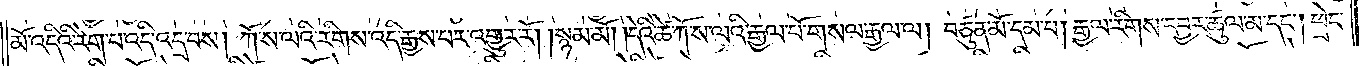མོ་འདིའི་རེག་པ་འདི་འདྲ་བས། ཀོ་ས་ལའི་རིགས་འདི་རྒྱས་པར་འགྱུར་རོ། །སྙམ་མོ། །དེའི་ཚེ་ཀོ་ས་ལའི་རྒྱལ་པོ་གསལ་རྒྱལ་ལ། བཙུན་མོ་དམ་པ། རྒྱལ་རིགས་དབྱར་ཚུལ་མ་དང༌། ཕྲེང་
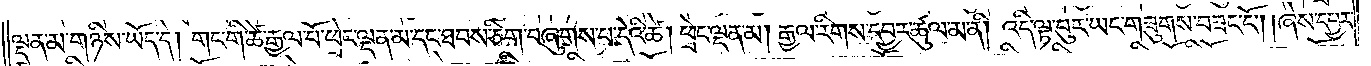ལྡན་མ་གཉིས་ཡོད་དེ། གང་གི་ཚེ་རྒྱལ་པོ་ཕྲེང་ལྡན་མ་དང་ཐབས་ཅིག་བཞུགས་པ་དེའི་ཚེ། ཕྲེང་ལྡན་མ། རྒྱལ་རིགས་དབྱར་ཚུལ་མ་ནི། འདི་ལྟ་བུར་ཡང་གཟུགས་བཟང་ངོ༌། །ཞེས་དབྱར་
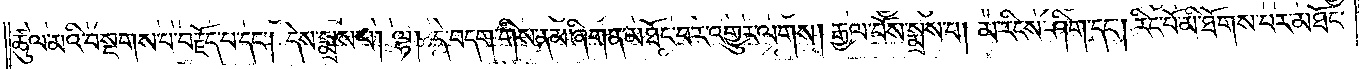ཚུལ་མའི་བསྔགས་པ་བརྗོད་པ་དང༌། དེས་སྨྲས་པ། ལྷ། དེ་བདག་གིས་ནམ་ཞིག་ན་མཐོང་བར་འགྱུར་ལགས། རྒྱལ་པོས་སྨྲས་པ། མ་རིངས་ཤིག་དང༌། རིང་པོ་མི་ཐོགས་པར་མཐོང་
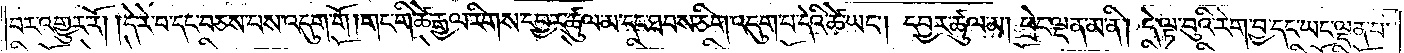བར་འགྱུར་རོ། །དེ་རེ་བ་དང་བཅས་པས་འདུག་གོ །གང་གི་ཚེ་རྒྱལ་རིགས་དབྱར་ཚུལ་མ་དང་ཐབས་ཅིག་འདུག་པ་དེའི་ཚེ་ཡང༌། དབྱར་ཚུལ་མ། ཕྲེང་ལྡན་མ་ནི། དེ་ལྟ་བུའི་རེག་བྱ་དང་ཡང་ལྡན་པ་
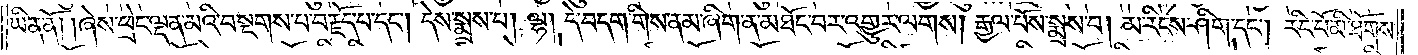ཡིན་ནོ། །ཞེས་ཕྲེང་ལྡན་མའི་བསྔགས་པ་བརྗོད་པ་དང༌། དེས་སྨྲས་པ། ལྷ། དེ་བདག་གིས་ནམ་ཞིག་ན་མཐོང་བར་འགྱུར་ལགས། རྒྱལ་པོས་སྨྲས་པ། མ་རིངས་ཤིག་དང༌། རིང་པོ་མི་ཐོགས་
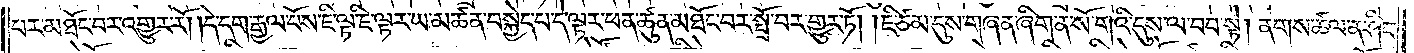པར་མཐོང་བར་འགྱུར་རོ། །དེ་དག་རྒྱལ་པོས་ཇི་ལྟ་ཇི་ལྟར་ཡ་མཚན་བསྐྱེད་པ་དེ་ལྟར་ཕན་ཚུན་མཐོང་བར་སྤྲོ་བར་གྱུར་ཏོ། །ཇི་ཙམ་དུས་གཞན་ཞིག་ན་སོ་གའི་དུས་ལ་བབ་སྟེ། ནགས་ཚལ་ན་ཤིང་
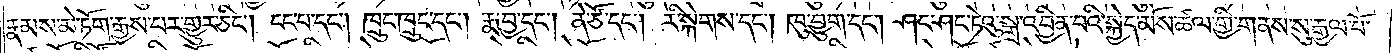རྣམས་མེ་ཏོག་རྒྱས་པར་གྱུར་ཅིང༌། ངང་པ་དང༌། ཁྲུང་ཁྲུང་དང༌། རྨ་བྱ་དང༌། ནེ་ཙོ་དང༌། རི་སྐེགས་དང༌། ཁུ་བྱུག་དང༌། ཤང་ཤང་ཏེའུ་སྒྲ་འབྱིན་པའི་སྐྱེད་མོས་ཚལ་གྱི་གནས་སུ་རྒྱལ་པོ་
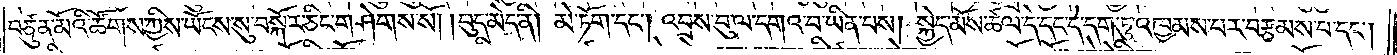བཙུན་མོའི་ཚོགས་ཀྱིས་ཡོངས་སུ་བསྐོར་ཅིང་གཤེགས་སོ། །བུད་མེད་ནི། མེ་ཏོག་དང༌། འབྲས་བུ་ལ་དགའ་བ་ཡིན་པས། སྐྱེད་མོས་ཚལ་དེ་དང་དེ་དག་ཏུ་འཁྱམས་པར་བརྩམས་པ་དང༌།
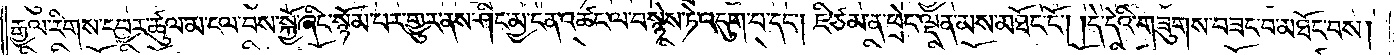རྒྱལ་རིགས་དབྱར་ཚུལ་མ་ངལ་བས་སྐྱོ་ཞིང་སྙོམ་པར་གྱུར་ནས་ཤིང་མྱ་ངན་འཚང་ལ་བསྙེས་ཏེ་འདུག་པ་དང༌། ཇི་ཙམ་ན་ཕྲེང་ལྡན་མས་མཐོང་ངོ༌། །དེ་དེའི་གཟུགས་བཟང་བ་མཐོང་བས།
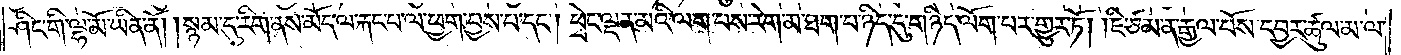ཤིང་གི་ལྷ་མོ་ཡིན་ནོ། །སྙམ་དུ་རིག་ནས་མོད་ལ་རྐང་པ་ལ་ཕྱག་བྱས་པ་དང༌། ཕྲེང་ལྡན་མའི་ལག་པས་རེག་མ་ཐག་པ་ཉིད་དུ་གཉིད་ལོག་པར་གྱུར་ཏོ། །ཇི་ཙམ་ན་རྒྱལ་པོས་དབྱར་ཚུལ་མ་ལ་
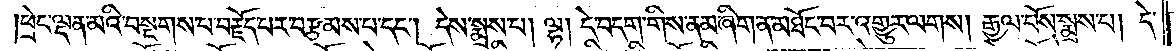ཕྲེང་ལྡན་མའི་བསྔགས་པ་བརྗོད་པར་བརྩམས་པ་དང༌། དེས་སྨྲས་པ། ལྷ། དེ་བདག་གིས་ནམ་ཞིག་ན་མཐོང་བར་འགྱུར་ལགས། རྒྱལ་པོས་སྨྲས་པ། དེ་
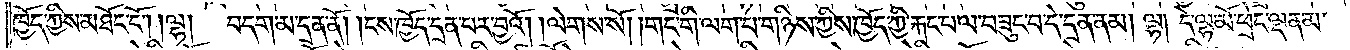ཁྱོད་ཀྱིས་མཐོང་ངོ༌། །ལྷ། བདག་མ་དྲན་ནོ། །ངས་ཁྱོད་དྲན་པར་བྱའོ། །ལེགས་སོ། །གང་གི་ལག་པ་གཉིས་ཀྱིས་ཁྱོད་ཀྱི་རྐང་པ་ལ་བཟུང་བ་དེ་དྲན་ནམ། ལྷ། དེ་ལྷ་མོ་ཕྲེང་ལྡན་མ་
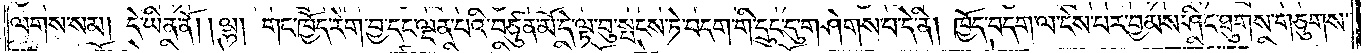ལགས་སམ། དེ་ཡིན་ནོ། །ལྷ། གང་ཁྱོད་རེག་བྱ་དང་ལྡན་པའི་བཙུན་མོ་དེ་ལྟ་བུ་སྤངས་ཏེ་བདག་གི་དྲུང་དུ་གཤེགས་པ་དེ་ནི། ཁྱོད་བདག་ལ་ངེས་པར་བྱམས་ཤིང་ཐུགས་གཅུགས་
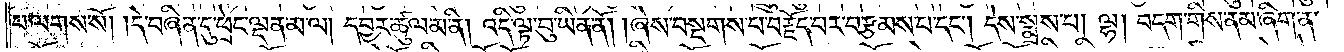པ་ལགས་སོ། །དེ་བཞིན་དུ་ཕྲེང་ལྡན་མ་ལ། དབྱར་ཚུལ་མ་ནི། འདི་ལྟ་བུ་ཡིན་ནོ། །ཞེས་བསྔགས་པ་བརྗོད་པར་བརྩམས་པ་དང༌། དེས་སྨྲས་པ། ལྷ། བདག་གིས་ནམ་ཞིག་ན་
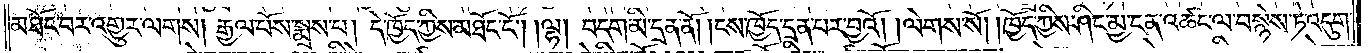མཐོང་བར་འགྱུར་ལགས། རྒྱལ་པོས་སྨྲས་པ། དེ་ཁྱོད་ཀྱིས་མཐོང་ངོ༌། །ལྷ། བདག་མི་དྲན་ནོ། །ངས་ཁྱོད་དྲན་པར་བྱའོ། །ལེགས་སོ། །ཁྱོད་ཀྱིས་ཤིང་མྱ་ངན་འཚང་ལ་བསྙེས་ཏེ་འདུག་
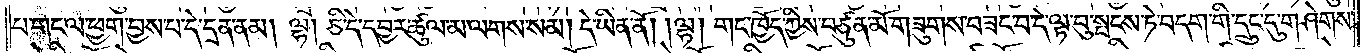པ་གང་ལ་ཕྱག་བྱས་པ་དེ་དྲན་ནམ། ལྷ། ཅི་དེ་དབྱར་ཚུལ་མ་ལགས་སམ། དེ་ཡིན་ནོ། །ལྷ། གང་ཁྱོད་ཀྱིས་བཙུན་མོ་གཟུགས་བཟང་བ་དེ་ལྟ་བུ་སྤངས་ཏེ་བདག་གི་དྲུང་དུ་གཤེགས་
